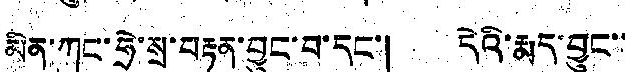མིན་ཀུང་ཧྲེ་སྲ་བརྟན་བྱུང་བ་དང་། དེའི་རྨད་བྱུང་་
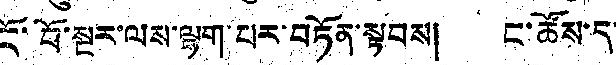ངོ་བོ་སྔར་ལས་ལྷག་པར་བཏོན་སྟབས། ང་ཚོས་ད་
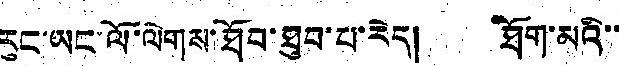རུང་ཡང་ལོ་ལེགས་ཐོབ་ཐུབ་པ་རེད། ཐོག་མའི་་
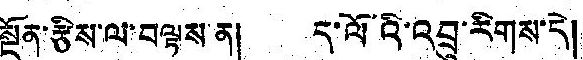སྔོན་རྩིས་ལ་བལྟས་ན། ད་ལོའི་འབྲུ་རིགས་དེ།
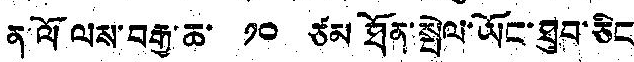ན་ལོ ལས་བརྒྱ་ཆ་ ༡༠ ཙམ ཐོན་སྤེལ་ཡོང་ཐུབ་ཅིང
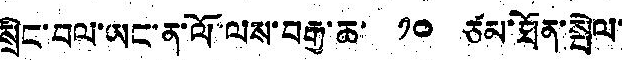སྲིང་བལ་ཡང་ན་ལོ་ལས་བརྒྱ་ཆ་ ༡༠ ཙམ་ཐོན་སྤེལ་
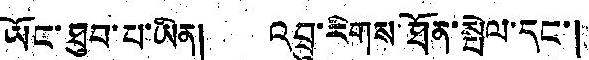ཡོང་ཐུབ་པ་ཡིན། འབྲུ་རིགས་ཐོན་སྤེལ་དང་།
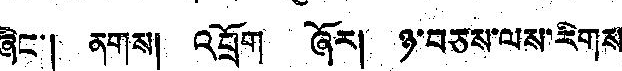ཞིང་། ནགས། འབྲོག ཞོར། ཉ་བཅས་ལས་རིགས
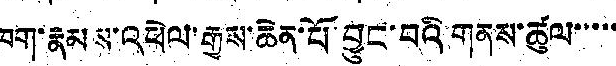ཁག་རྣམས་འཕེལ་རྒྱས་ཆེན་པོ་བྱུང་བའི་གནས་ཚུལ་་་་་
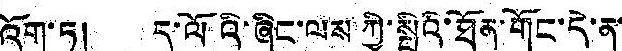འོག་ཏུ། ད་ལོའི་ཞིང་ལས་ཀྱི་སྤྱིའི་ཐོན་གོང་དེ་ན་
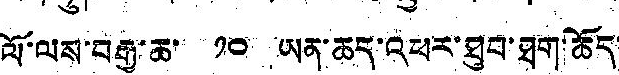ལོ་ལས་བརྒྱ་ཆ་ ༡༠ ཡན་ཆད་འཕར་ཐུབ་ཐག་ཆོད་
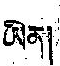ཡིན།
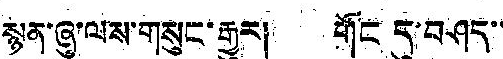སྙན་ཞུ་ལས་གསུང་རྒྱུར། གོང དུ་བཤད་་
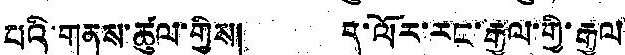པའི་གནས་ཚུལ་གྱིས། ད་ལོར་རང་རྒྱལ་གྱི་རྒྱལ་
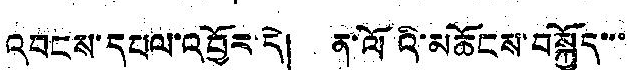འབངས་དཔལ་འབྱོར་དེ། ན་ལོའི་མཆོངས་བསྐྱོད་་་
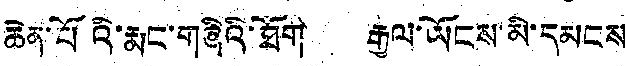ཆེན་པོའི་རྨང་གཞིའི་ཐོག རྒྱལ་ཡོངས་མི་དམངས
